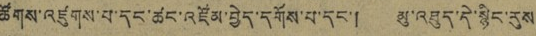ཚོགས་འཛུགས་པ་དང་ཚང་འཛོམ་བྱེད་དགོས་པ་དང་། མུ་འཐུད་དེ་སྙིང་རུས
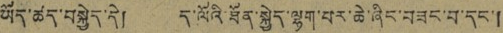ཡོད་ཚད་བསྐྱེད་དེ། ད་ལོའི་ཐོན་སྐྱེད་ལྷག་པར་ཆེ་ཞིང་བཟང་པ་དང་།
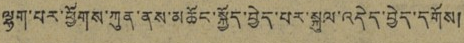ལྷག་པར་ཕྱོགས་ཀུན་ནས་མཆོང་སྐྱོད་བྱེད་པར་སྐུལ་འདེད་བྱེད་དགོས།
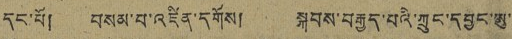དང་པོ། བསམ་པ་འཛིན་དགོས། སྐབས་བརྒྱད་པའི་ཀྲུང་དབྱང་ཨུ་
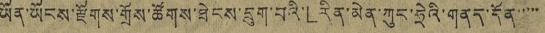ཡོན་ཡོངས་རྫོགས་གྲོས་ཚོགས་ཐེངས་དྲུག་པའི་「རིན་མེན་ཀུང་ཧྲེའི་གནད་དོན་་་་་
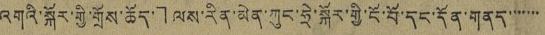འགའི་སྐོར་གྱི་གྲོས་ཆོད་」ལས་རིན་མེན་ཀུང་ཧྲེ་སྐོར་གྱི་ངོ་བོ་དང་དོན་གནད་་་་་་་
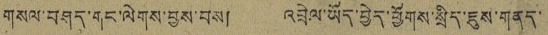གསལ་བཤད་གང་ལེགས་བྱས་བས། འབྲེལ་ཡོད་བྱེད་ཕྱོགས་སྲིད་ཇུས་གནད་
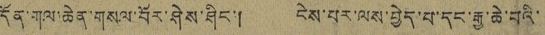དོན་གལ་ཆེན་གསལ་པོར་ཤེས་ཤིང་། ངེས་པར་ལས་བྱེད་པ་དང་རྒྱ་ཆེ་བའི་
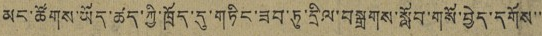མང་ཚོགས་ཡོད་ཚད་ཀྱི་ཁྲོད་དུ་གཏིང་ཟབ་ཏུ་དྲིལ་བསྒྲགས་སློབ་གསོ་བྱེད་དགོས་་
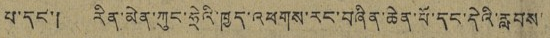པ་དང་། རིན་མེན་ཀུང་ཧྲེའི་ཁྱད་འཕགས་རང་བཞིན་ཆེན་པོ་དང་དེའི་རླབས་
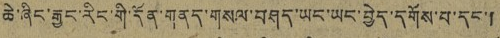ཆེ་ཞིང་རྒྱང་རིང་གི་དོན་གནད་གསལ་བཤད་ཡང་ཡང་བྱེད་དགོས་པ་དང་།
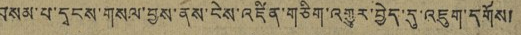བསམ་པ་དྭངས་གསལ་བྱས་ནས་ངེས་འཛིན་གཅིག་འགྱུར་བྱེད་དུ་འཇུག་དགོས།
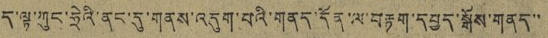ད་ལྟ་ཀུང་ཧྲེའི་ནང་དུ་གནས་འདུག་པའི་གནད་དོན་ལ་བརྟག་དབྱད་སྒོས་གནད་་
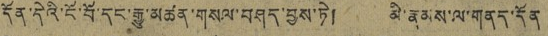དོན་དེའི་ངོ་བོ་དང་རྒྱུ་མཚན་གསལ་བཤད་བྱས་ཏེ། མི་རྣམས་ལ་གནད་དོན
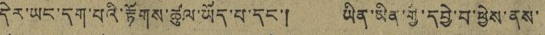དེར་ཡང་དག་པའི་རྟོགས་ཚུལ་ཡོད་པ་དང་། ཡིན་མིན་གྱི་དབྱེ་བ་ཕྱེས་ནས་
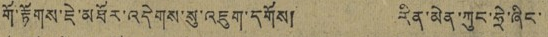གོ་རྟོགས་ཇེ་མཐོར་འདེགས་སུ་འཇུག་དགོས། རིན་མེན་ཀུང་ཧྲེ་ཞིང་
